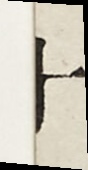十
